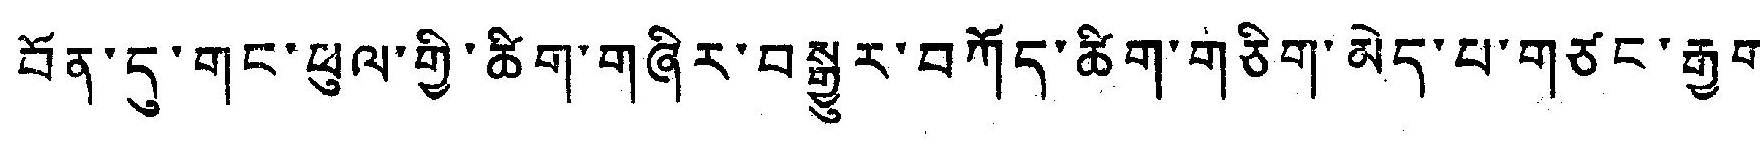བོན་དུ་གང་ཕུལ་གྱི་ཚིག་གཞིར་བསྒྱུར་བཀོད་ཚིག་གཅིག་མེད་པ་གཙང་རྒྱག་
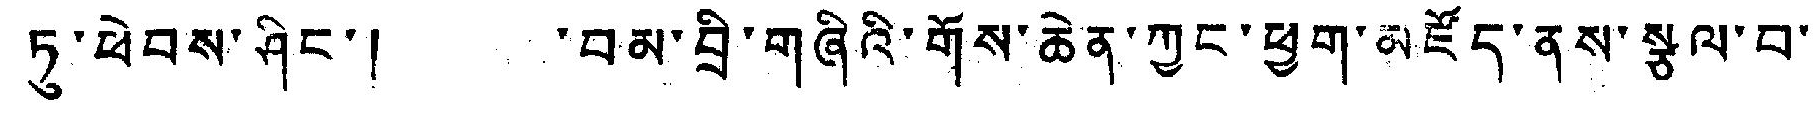ཏུ་ཕེབས་ཤིང་། བམ་བྲི་གཞིའི་གོས་ཆེན་ཀྱང་ཕྱག་མཛོད་ནས་སྩལ་བ་
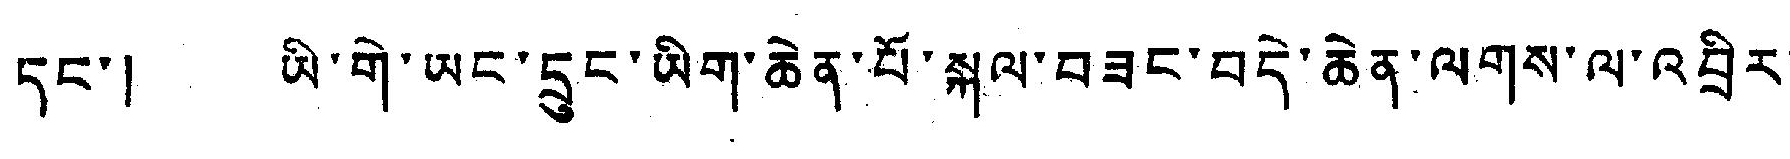དང་། ཡི་གེ་ཡང་དྲུང་ཡིག་ཆེན་པོ་སྐལ་བཟང་བདེ་ཆེན་ལགས་ལ་འབྲིར་
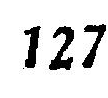127
